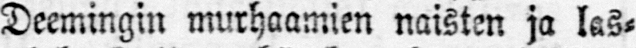Deemingin murhaamien naisten ja las-
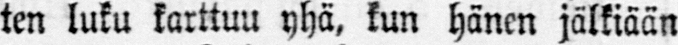ten luku karttuu yhä, kun hänen jälkiään
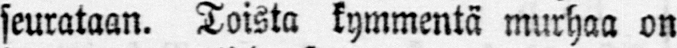seurataan. Toista kymmentä murhaa on
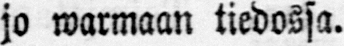jo warmaan tiedossa.
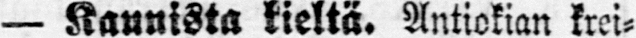— Kaunista kieltä. Antiokian krei-
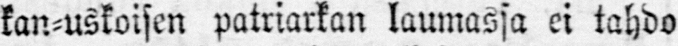kan-uskoisen patriarkan laumassa ei tahdo
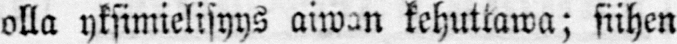olla yksimielisyys aiwan kehuttawa; siihen
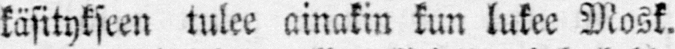käsitykseen tulee ainakin kun lukee Mosk.
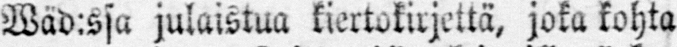Wäd:ssa julaistua kiertokirjettä, joka kohta
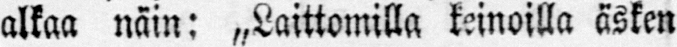alkaa näin: „Laittomilla keinoilla äsken
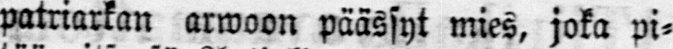patriarkan arwoon päässyt mies, joka pi-
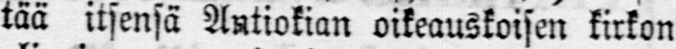tää itsensä Antiokian oikeauskoisen kirkon
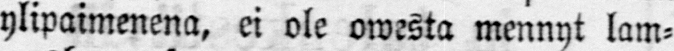ylipaimenena, ei ole owesta mennyt lam-
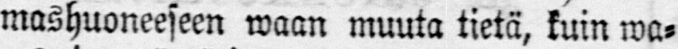mashuoneeseen waan muuta tietä, kuin wa-
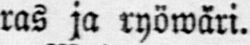ras ja ryöwäri.
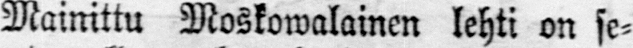Mainittu Moskowalainen lehti on se-
